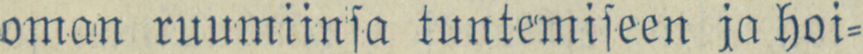oman ruumiinsa tuntemiseen ja hoi-
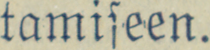tamiseen.
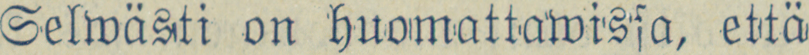Selwästi on huomattawissa, että
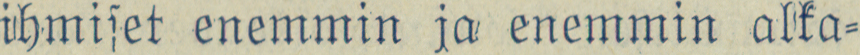ihmiset enemmin ja enemmin alka-
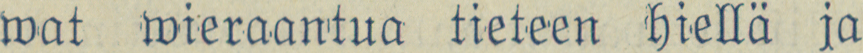wat wieraantua tieteen hiellä ja
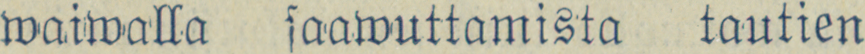waiwalla saawuttamista tautien
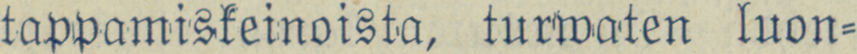tappamiskeinoista, turwaten luon-
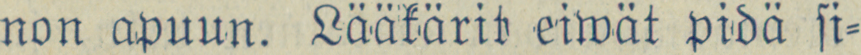non apuun. Lääkärit eiwät pidä si-
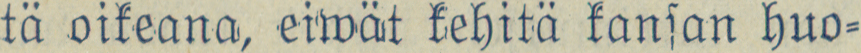tä oikeana, eiwät kehitä kansan huo-
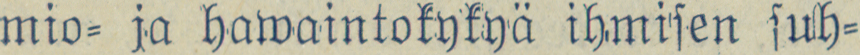mio- ja hawaintokykyä ihmisen suh-
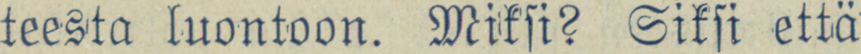teesta luontoon. Miksi? Siksi että
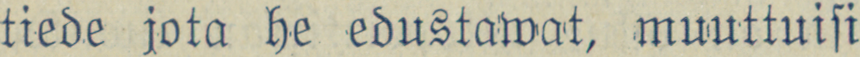tiede jota he edustawat, muuttuisi
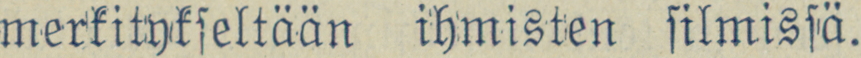merkitykseltään ihmisten silmissä.
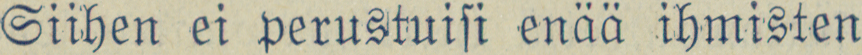Siihen ei perustuisi enää ihmisten
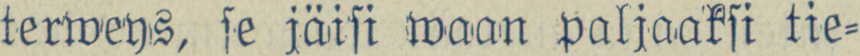terweys, se jäisi waan paljaaksi tie-
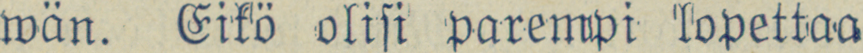wän. Eikö olisi parempi lopettaa
